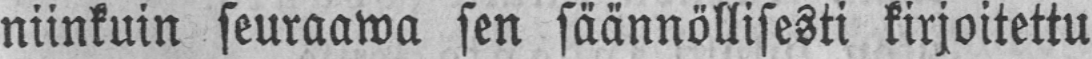niinkuin seuraawa sen säännöllisesti kirjoitettu
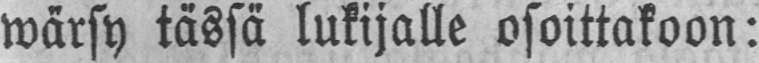wärsy tässä lukijalle osoittakoon:
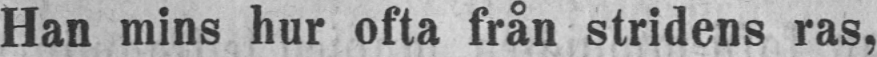Han mins hur ofta från stridens ras,
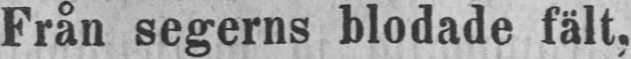Från segerns blodade fält,
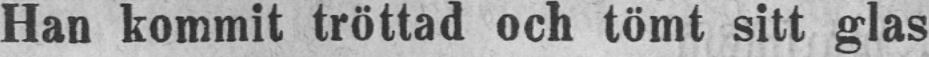Han kommit tröttad ock tömt sitt glas
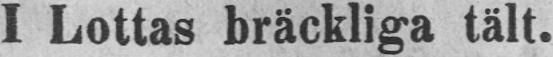I Lottas bräckliga tält.
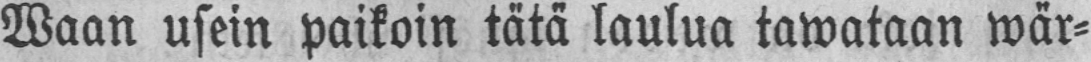Waan usein paikoin tätä laulua tawataan wär-
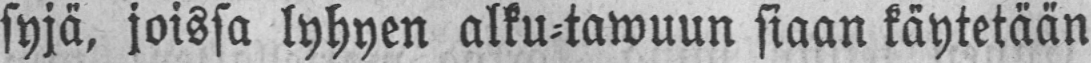syjä, joissa lyhyen alku-tawuun siaan käytetään
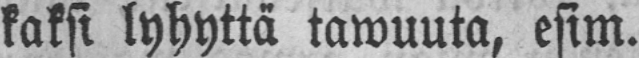kaksi lyhyttä tawuuta, esim.
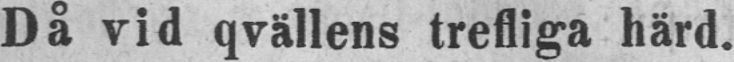Då vid gvällens trefliga härd.
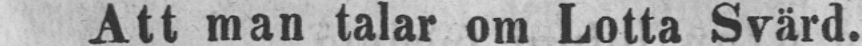Att man talar om Lotta Svärd.
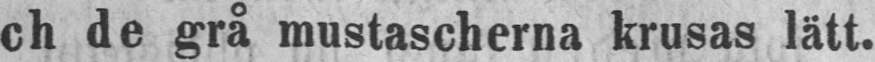Och de grå mustascherna krusas lätt.
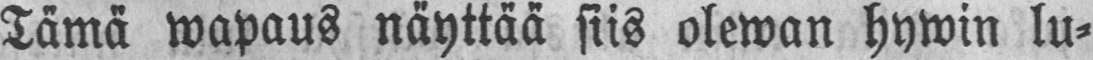Tämä wapaus näyttää siis olewan hywin lu-
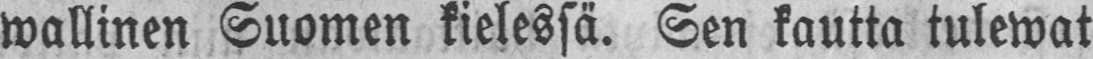wallinen Suomen kielessä. Sen kautta tulewat
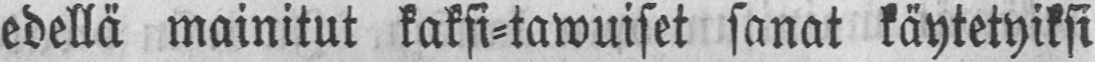edellä mainitut kaksi-tawuiset sanat käytetyiksi
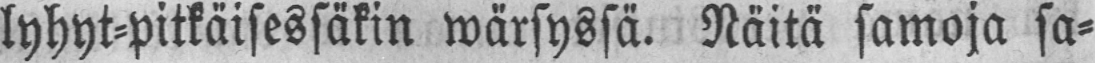lyhyt-pitkäisessäkin wärsyssä. Näitä samoja sa-
